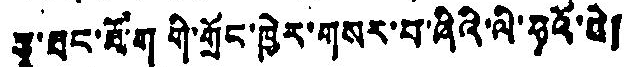རྩྭ་ཐང་ཐོག གི་གྲོང་ཁྱེར་གསར་བ་ཞིའི་ལི་ཧའོ་ཆེ།
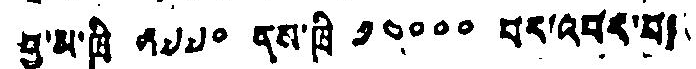བྱ་མ་ཁྲི ༢༧༧༠ ནས་ཁྲི ༡༤༠༠༠ བར་འབར་བ།
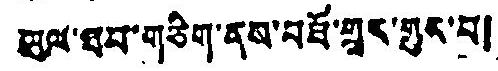ཡུལ་ཐུབ་གཅིག་ནས་བཟོ་གྲྭར་གྱར་བ།
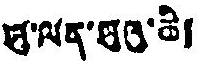ཡུ་ལན་མུའུ་ཆི།
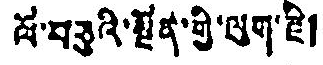ལོ་བཅུའི་སྔོན་གྱི་ལུག་ཇི།
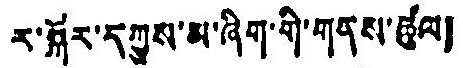ར་སྐོར་དཀྱུས་མ་ཞིག་གི་གནས་ཚུལ།
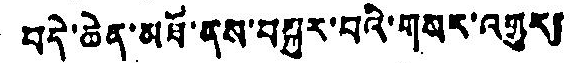བདེ་ཆེན་མཐོ་ནས་བསྐུར་བའི་གསར་འགྱུར།
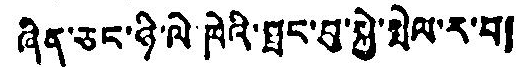ཞིན་ཅང་ཉི་ལེ་ཁེའི་སྤང་བུ་སྐྱེ་སྤེལ་ར་བ།
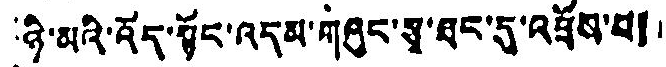ཉི་མའི་འོད་སྟོང་འདམ་གཞུང་རྩྭ་ཐང་དུ་འཕྲོས་པ།
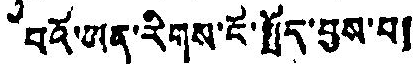པའོ་ཨན་རིགས་ངོ་སྤྲོད་བྱས་པ།
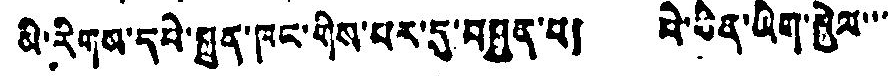མི་རིགས་དཔེ་སྐྲུན་ཁང་གིས་པར་དུ་བཐུན་པ། པེ་ཅིན་ཡིག་སྐྱེལ་་་་
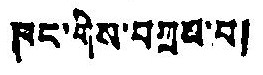ཁང་གིས་བཀྲབ་པ།
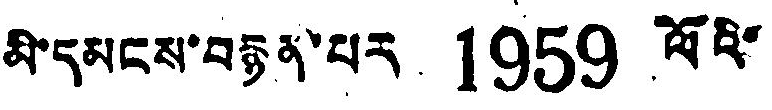མི་དམངས་བརྙན་པར 1959 ལོའི་
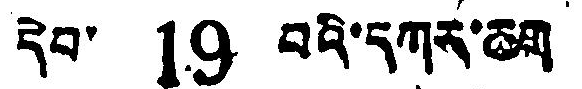དེབ་ 19 བའི་དཀར་ཆག
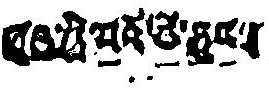རྒབ་ཀྱི་མན་མི་རལས
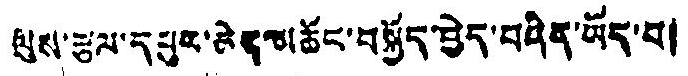ལུས་རྩལ་དཔུང་ཆེན་མཆོང་བསྐྱོད་བྱེད་བཞིན་ཡོད་པ།
